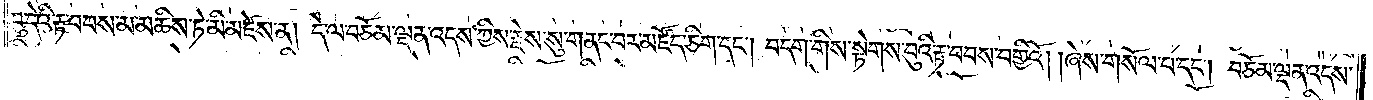བུ་དེའི་རྟ་བབས་མ་མཆིས་ཏེ་མི་མཛེས་ན། དེ་ལ་བཅོམ་ལྡན་འདས་ཀྱིས་རྗེས་སུ་གནང་བར་མཛོད་ཅིག་དང༌། བདག་གིས་སྟེགས་བུའི་རྟ་བབས་བགྱིའོ། །ཞེས་གསོལ་པ་དང༌། བཅོམ་ལྡན་འདས་
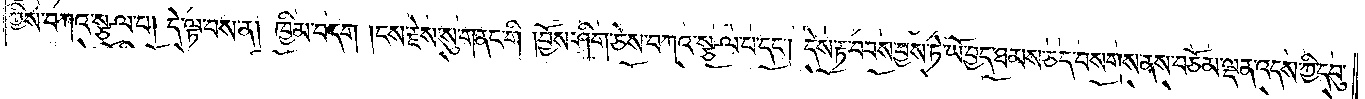ཀྱིས་བཀའ་སྩལ་པ། དེ་ལྟ་བས་ན། ཁྱིམ་བདག །ངས་རྗེས་སུ་གནང་གི །བྱོས་ཤིག་ཅེས་བཀའ་སྩལ་པ་དང༌། དེས་རྟ་བབས་བྱས་ཏེ་ཡོ་བྱད་ཐམས་ཅད་བསགས་ནས་བཅོམ་ལྡན་འདས་ཀྱི་དབུ་
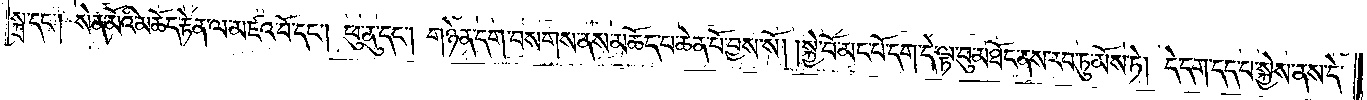སྐྲ་དང༌། སེན་མོའི་མཆོད་རྟེན་ལ་མཛའ་བོ་དང༌། ཕུ་ནུ་དང༌། གཉེན་དག་བསགས་ནས་མཆོད་པ་ཆེན་པོ་བྱས་སོ། །སྐྱེ་བོ་མང་པོ་དག་དེ་ལྟ་བུ་མཐོང་ནས་རབ་ཏུ་མོས་ཏེ། དེ་དག་དད་པ་སྐྱེས་ནས་དེ་
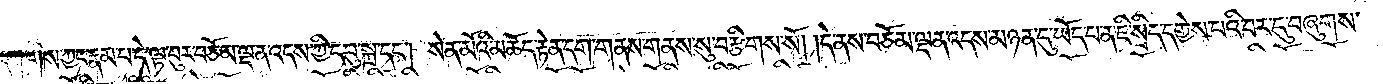དག་གིས་ཀྱང་རྣམ་པ་དེ་ལྟ་བུར་བཅོམ་ལྡན་འདས་ཀྱི་དབུ་སྐྲ་དང༌། སེན་མོའི་མཆོད་རྟེན་དག་གནས་གནས་སུ་བརྩིགས་སོ། །དེ་ནས་བཅོམ་ལྡན་འདས་མཉན་དུ་ཡོད་པ་ན་ཇི་སྲིད་དགྱེས་པའི་བར་དུ་བཞུགས་
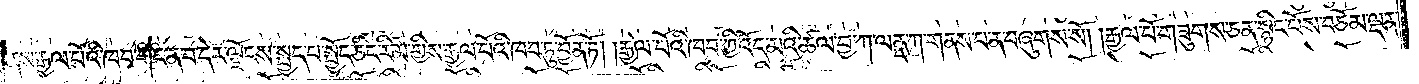ནས་རྒྱལ་པོའི་ཁབ་གང་ན་བ་དེར་ལྗོངས་སྤྱད་པ་སྤྱོད་ཅིང་རིམ་གྱིས་རྒྱལ་པོའི་ཁབ་ཏུ་བྱོན་ཏོ། །རྒྱལ་པོའི་ཁབ་ཀྱི་འོད་མའི་ཚལ་བྱ་ཀ་ལནད་ཀ་གནས་པ་ན་བཞུགས་སོ། །རྒྱལ་པོ་གཟུགས་ཅན་སྙིང་པོས་བཅོམ་ལྡན་
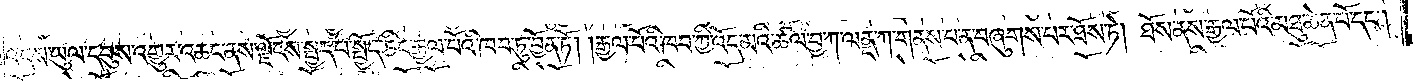འདས་ཡུལ་དབུས་འགྱུར་འཆང་ནས་ལྗོངས་སྤྱད་པ་སྤྱོད་ཅིང་རྒྱལ་པོའི་ཁབ་ཏུ་བྱོན་ཏོ། །རྒྱལ་པོའི་ཁབ་ཀྱི་འོད་མའི་ཚལ་བྱ་ཀ་ལནད་ཀ་གནས་པ་ན་བཞུགས་པར་ཐོས་ཏེ། ཐོས་ནས་རྒྱལ་པོའི་མཐུ་ཆེན་པོ་དང༌།
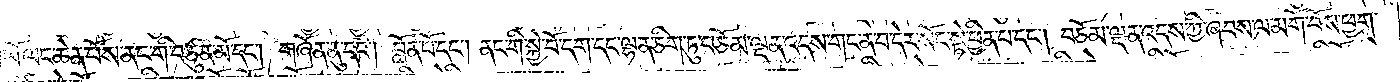ཡོ་ལང་ཆེན་པོས་ནང་གི་བཙུན་མོ་དང༌། གཞོན་ནུ་དང༌། བློན་པོ་དང༌། ནང་གི་སྐྱེ་བོ་དག་དང་ལྷན་ཅིག་ཏུ་བཅོམ་ལྡན་འདས་གང་ན་བ་དེར་སོང་སྟེ་ཕྱིན་པ་དང༌། བཅོམ་ལྡན་འདས་ཀྱི་ཞབས་ལ་མགོ་བོས་ཕྱག་
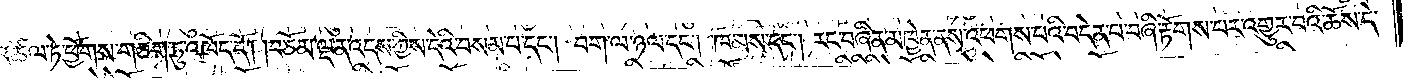འཚལ་ཏེ་ཕྱོགས་གཅིག་ཏུ་འཁོད་དོ། །བཅོམ་ལྡན་འདས་ཀྱིས་དེའི་བསམ་པ་དང༌། བག་ལ་ཉལ་དང༌། ཁམས་དང༌། རང་བཞིན་མཁྱེན་ནས་འཕགས་པའི་བདེན་པ་བཞི་རྟོགས་པར་འགྱུར་བའི་ཆོས་དེ་
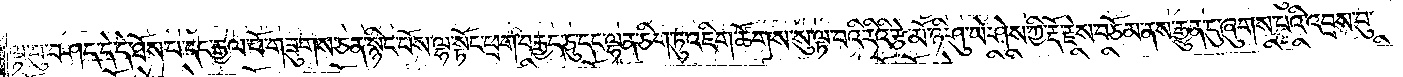ལྟ་བུ་བཤད་དེ་དེ་ཐོས་པ་དང་རྒྱལ་པོ་གཟུགས་ཅན་སྙིང་པོས་ལྷ་སྟོང་ཕྲག་བརྒྱད་ཅུ་དང་ལྷན་ཅིག་ཏུ་འཇིག་ཚོགས་སུ་ལྟ་བའི་རིའི་རྩེ་མོ་ཉི་ཤུ་ཡེ་ཤེས་ཀྱི་རྡོ་རྗེས་བཅོམ་ནས་རྒྱུན་དུ་ཞུགས་པའི་འབྲས་བུ་
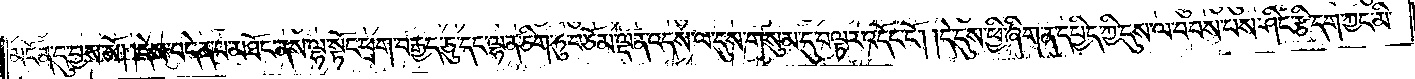མངོན་དུ་བྱས་སོ། །དེས་བདེན་པ་མཐོང་ནས་ལྷ་སྟོང་ཕྲ་བརྒྱད་ཅུ་དང་ལྷན་ཅིག་ཏུ་བཅོམ་ལྡན་འདས་ལ་དུས་གསུམ་དུ་བལྟར་འདོང་ངོ༌། །དེ་དུས་ཕྱི་ཞིག་ན་དཔྱིད་ཀྱི་དུས་ལ་བབས་པས་ཤིང་རྩི་དག་ཀྱང་མི་
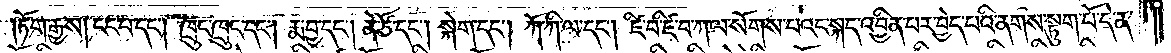ཏོག་རྒྱས། ངང་པ་དང༌། ཁྲུང་ཁྲུང་དང༌། རྨ་བྱ་དང༌། ནེ་ཙོ་དང༌། སྐེག་དང༌། ཀོ་ཀི་ལ་དང༌། ཛི་བ་ཛི་བ་ཀ་ལ་སོགས་པའང་སྐད་འབྱིན་པར་བྱེད་པའི་ནགས་སྟུག་པོ་དེ་ན་
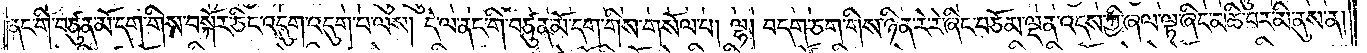ནང་གི་བཙུན་མོ་དག་གིས་བསྐོར་ཅིང་འདུག་འདུག་པ་ལས། དེ་ལ་ནང་གི་བཙུན་མོ་དག་གིས་གསོལ་པ། ལྷ། བདག་ཅག་གིས་ཉིན་རེ་རེ་ཞིང་བཅོམ་ལྡན་འདས་ཀྱི་ཞལ་ལྟ་ཞིང་མཆི་བར་མི་ནུས་ན།
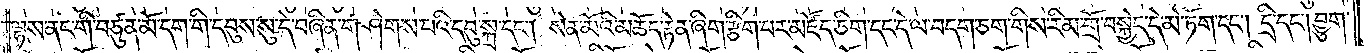ལྷས་ནང་གི་བཙུན་མོ་དག་གི་དབུས་སུ་དེ་བཞིན་གཤེགས་པའི་དབུ་སྐྲ་དང༌། སེན་མོའི་མཆོད་རྟེན་ཞིག་རྩིག་པར་མཛོད་ཅིག་དང་དེ་ལ་བདག་ཅག་གིས་རིམ་གྲོ་བསྐྱེད་དེ་མེ་ཏོག་དང༌། དྲི་དང༌། བྱུག་
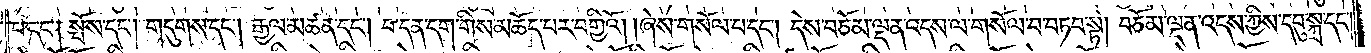པ་དང༌། སྤོས་དང༌། གདུགས་དང༌། རྒྱལ་མཚན་དང༌། བ་དན་དག་གིས་མཆོད་པར་བགྱིའོ། །ཞེས་གསོལ་པ་དང༌། དེས་བཅོམ་ལྡན་འདས་ལ་གསོལ་བ་བཏབ་སྟེ། བཅོམ་ལྡན་འདས་ཀྱིས་དབུ་སྐྲ་དང༌།
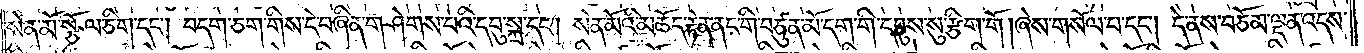སེན་མོ་སྩོལ་ཅིག་དང༌། བདག་ཅག་གིས་དེ་བཞིན་གཤེགས་པའི་དབུ་སྐྲ་དང༌། སེན་མོའི་མཆོད་རྟེན་ནང་གི་བཙུན་མོ་དག་གི་དབུས་སུ་རྩིག་གོ །ཞེས་གསོལ་པ་དང༌། དེ་ནས་བཅོམ་ལྡན་འདས་
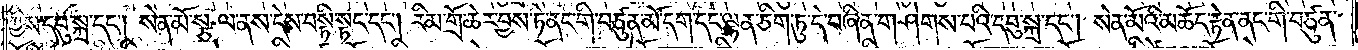ཀྱིས་དབུ་སྐྲ་དང༌། སེན་མོ་སྩལ་ནས་དེས་བསྟི་སྟང་དང༌། རིམ་གྲོ་ཆེར་བྱས་ཏེ་ནང་གི་བཙུན་མོ་དག་དང་ལྷན་ཅིག་ཏུ་དེ་བཞིན་གཤེགས་པའི་དབུ་སྐྲ་དང༌། སེན་མོའི་མཆོད་རྟེན་ནང་གི་བཙུན་
